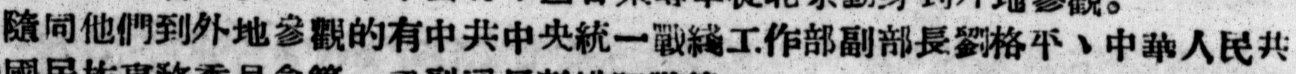隨同他們到外地參觀的有中共中央統一戰綫工作部副部長劉格平、中華人民共
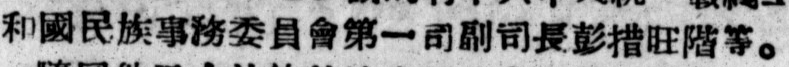和國民族事務委員會第一司副司長彭措旺階等。
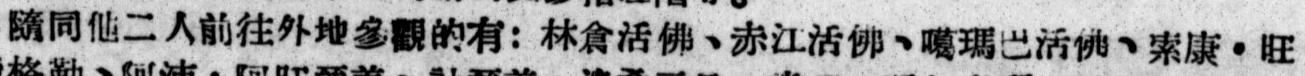隨同他二人前往外地參觀的有：林倉活佛、赤江活佛、噶瑪巴活佛、索康・旺
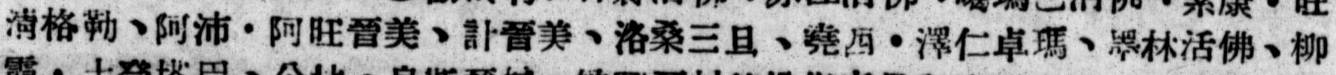清格勒、阿沛・阿旺晉美、計晉美、洛桑三旦、堯西・澤仁卓瑪、旻林活佛、柳
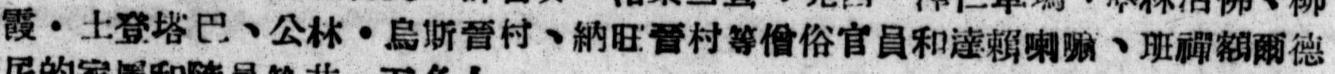霞・土登塔巴、公林・烏斯晉村、納旺晉村等僧俗官員和達賴喇嘛、班禪額爾德
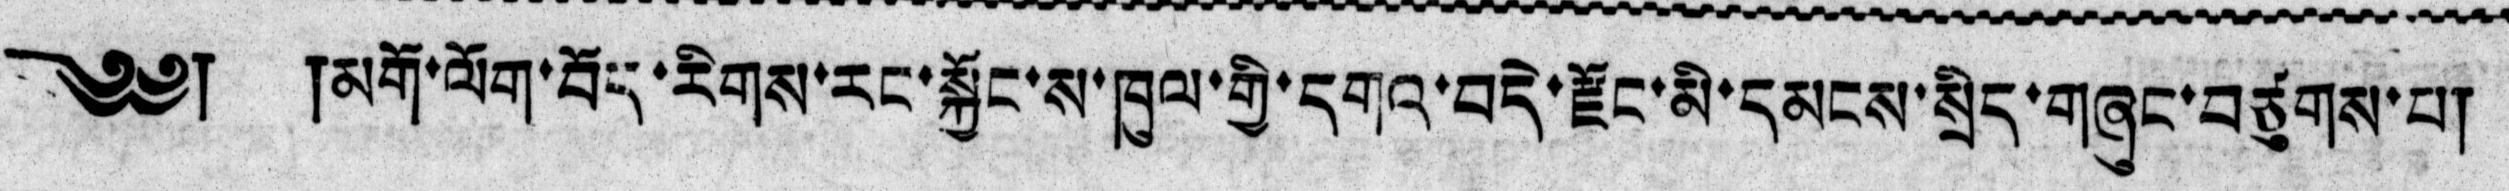༄༅། །མགོ་ལོག་བོད་རིགས་རང་སྐྱོང་ས་ཁུལ་གྱི་དགའ་བདེ་རྫོང་མི་དམངས་སྲིད་གཞུང་བཙུགས་པ།
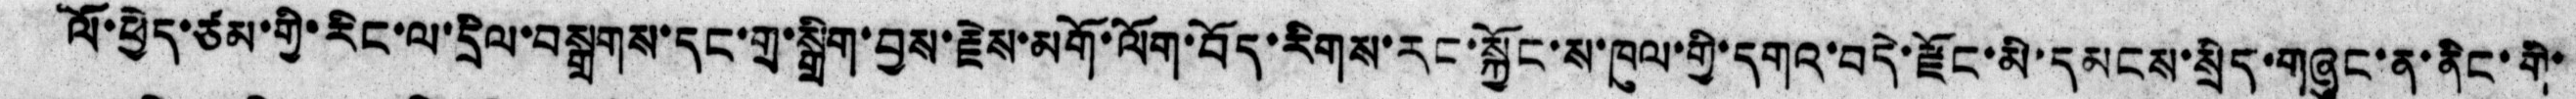ལོ་ཕྱེད་ཙམ་གྱི་རིང་ལ་དྲིལ་བསྒྲགས་དང་གྲ་སྒྲིག་བྱས་རྗེས་མགོ་ལོག་བོད་རིགས་རང་སྐྱོང་ས་ཁུལ་གྱི་དགའ་བདེ་རྫོང་མི་དམངས་སྲིད་གཞུང་ན་ནིང་གི་
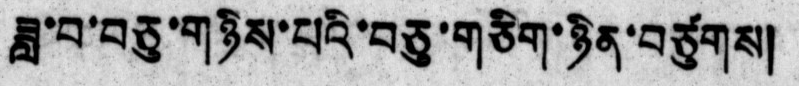ཟླ་བ་བཅུ་གཉིས་པའི་བཅུ་གཅིག་ཉིན་བཙུགས།
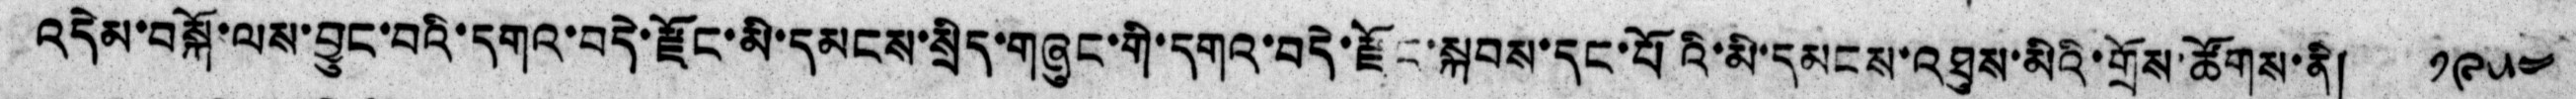འདེམ་བསྐོ་ལས་བྱུང་བའི་དགའ་བདེ་རྫོང་མི་དམངས་སྲིད་གཞུང་གི་དགའ་བདེ་རྫོང་སྐབས་དང་པོའི་མི་དམངས་འཐུས་མིའི་གྲོས་ཚོགས་ནི། ༡༩༥༤
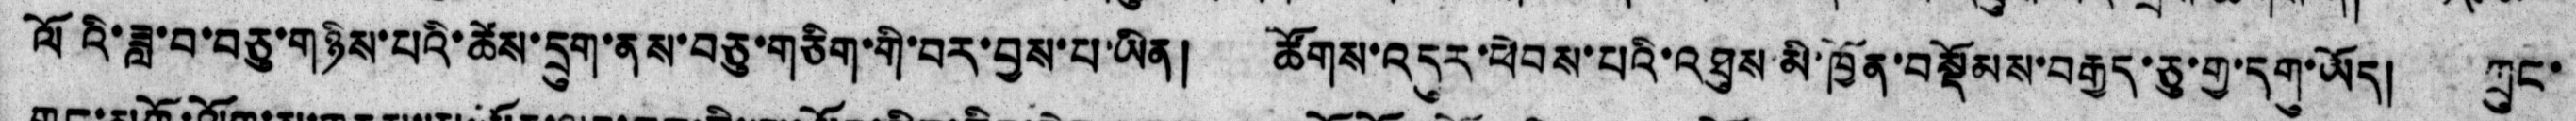ལོའི་ཟླ་བ་བཅུ་གཉིས་པའི་ཚེས་དྲུག་ནས་བཅུ་གཅིག་གི་བར་བྱས་པ་ཡིན། ཚོགས་འདུར་ཕེབས་པའི་འཐུས་མི་ཁྱོན་བསྡོམས་བརྒྱད་ཅུ་གྱ་དགུ་ཡོད། ཀྲུང་
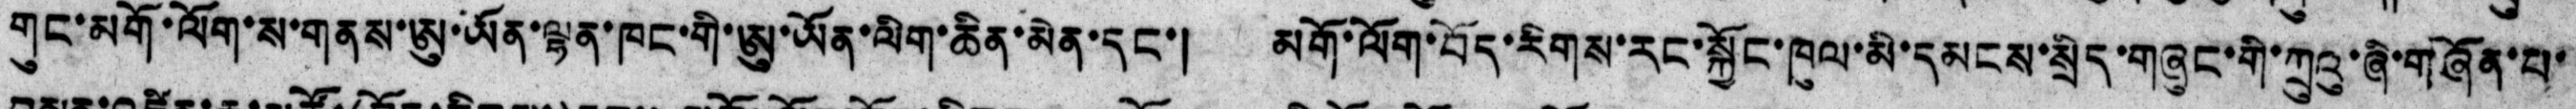གུང་མགོ་ལོག་ས་གནས་ཨུ་ཡོན་ལྷན་ཁང་གི་ཨུ་ཡོན་ལིག་ཆིན་མེན་དང་། མགོ་ལོག་བོད་རིགས་རང་སྐྱོང་ཁུལ་མི་དམངས་སྲིད་གཞུང་གི་ཀྲུའུ་ཞི་གཞོན་པ་
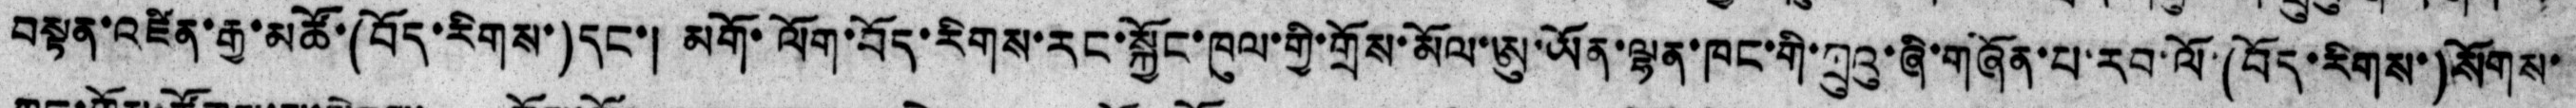སྟན་འཛིན་རྒྱ་མཚོ་(བོད་རིགས་)དང་། མགོ་ལོག་བོད་རིགས་རང་སྐྱོང་ཁུལ་གྱི་གྲོས་མོལ་ཨུ་ཡོན་ལྷན་ཁང་གི་ཀྲུའུ་ཞི་གཞོན་པ་རབ་ལོ་(བོད་རིགས་)སོགས་་
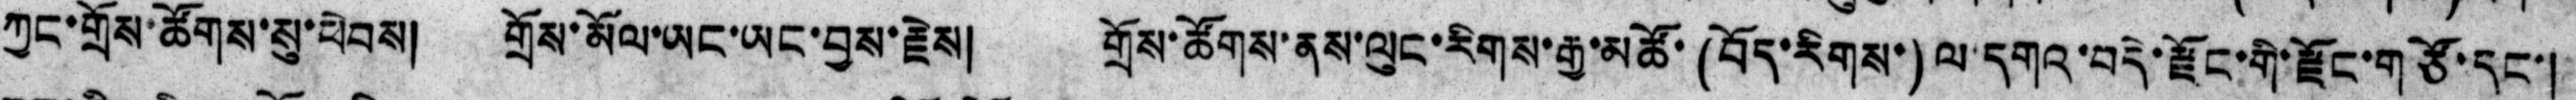ཀྱང་གྲོས་ཚོགས་སུ་ཕེབས། གྲོས་མོལ་ཡང་ཡང་བྱས་རྗེས། གྲོས་ཚོགས་ནས་ལུང་རིགས་རྒྱ་མཚོ་(བོད་རིགས་)ལ་དགའ་བདེ་རྫོང་གི་རྫོང་གཙོ་དང་།
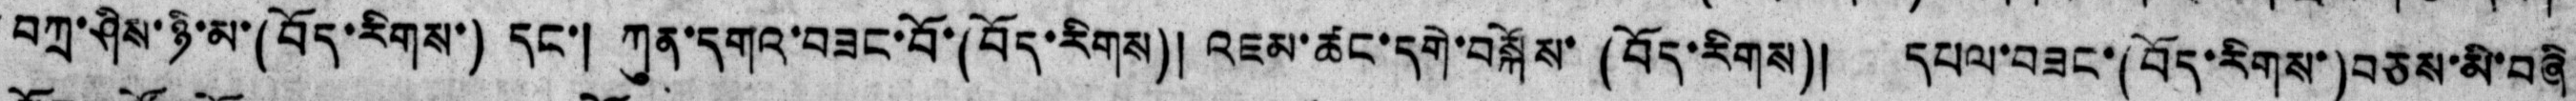བཀྲ་ཤིས་ཉི་མ་(བོད་རིགས་)དང་། ཀུན་དགའ་བཟང་བོ་(བོད་རིགས)།  འཇམ་ཚང་དགེ་བསྐོས་(བོད་རིགས)། དཔལ་བཟང་(བོད་རིགས་)བཅས་མི་བཞི
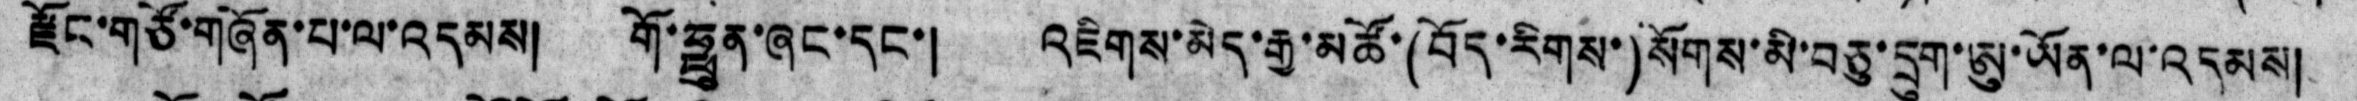རྫོང་གཙོ་གཞོན་པ་ལ་འདམས། གོ་ཧྥུན་ཞང་དང་། འཇིགས་མེད་རྒྱ་མཚོ་(བོད་རིགས་)སོགས་མི་བཅུ་དྲུག་ཨུ་ཡོན་ལ་འདམས།
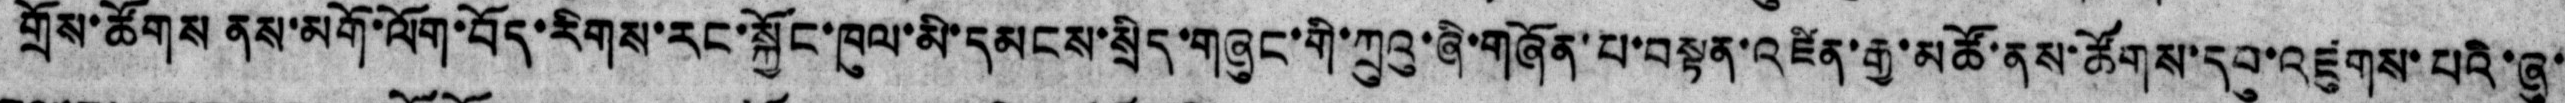གྲོས་ཚོགས ནས་མགོ་ལོག་བོད་རིགས་རང་སྐྱོང་ཁུལ་མི་དམངས་སྲིད་གཞུང་གི་ཀྲུའུ་ཞི་གཞོན་པ་བསྟན་འཛིན་རྒྱ་མཚོ་ནས་ཚོགས་དབ་འཛུགས་པའི་ཞུ་
